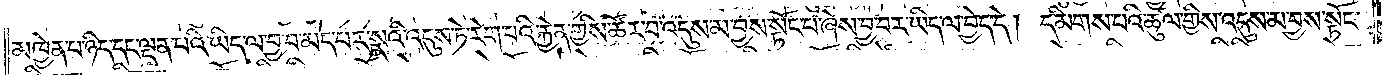མཁྱེན་པ་ཉིད་དང་ལྡན་པའི་ཡིད་ལ་བྱ་བ་མེད་པར་སྣའི་འདུས་ཏེ་རེག་པའི་རྐྱེན་གྱིས་ཚོར་བ་འདུས་མ་བྱས་སྟོང་པ་ཞེས་བྱ་བར་ཡིད་ལ་བྱེད་དེ། དམིགས་པའི་ཚུལ་གྱིས་འདུས་མ་བྱས་སྟོང་
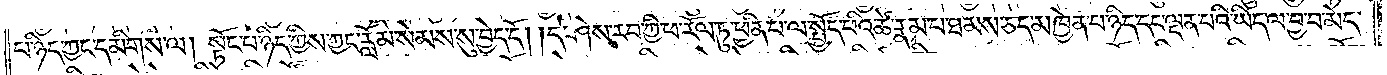པ་ཉིད་ཀྱང་དམིགས་ལ། སྟོང་པ་ཉིད་ཀྱིས་ཀྱང་རློམ་སེམས་སུ་བྱེད་དོ། །དེ་ཤེས་རབ་ཀྱི་ཕ་རོལ་ཏུ་ཕྱིན་པ་ལ་སྤྱོད་པའི་ཚེ་རྣམ་པ་ཐམས་ཅད་མཁྱེན་པ་ཉིད་དང་ལྡན་པའི་ཡིད་ལ་བྱ་བ་མེད་
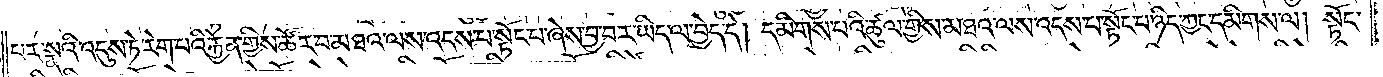པར་སྣའི་འདུས་ཏེ་རེག་པའི་རྐྱེན་གྱིས་ཚོར་བ་མཐའ་ལས་འདས་པ་སྟོང་པ་ཞེས་བྱ་བར་ཡིད་ལ་བྱེད་དེ། དམིགས་པའི་ཚུལ་གྱིས་མཐའ་ལས་འདས་པ་སྟོང་པ་ཉིད་ཀྱང་དམིགས་ལ། སྟོང་
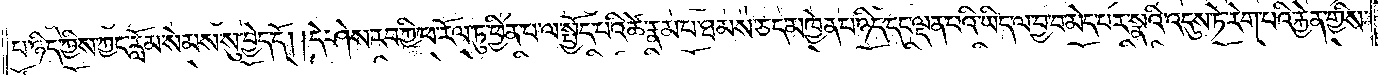པ་ཉིད་ཀྱིས་ཀྱང་རློམ་སེམས་སུ་བྱེད་དོ། །དེ་ཤེས་རབ་ཀྱི་ཕ་རོལ་ཏུ་ཕྱིན་པ་ལ་སྤྱོད་པའི་ཚེ་རྣམ་པ་ཐམས་ཅད་མཁྱེན་པ་ཉིད་དང་ལྡན་པའི་ཡིད་ལ་བྱ་བ་མེད་པར་སྣའི་འདུས་ཏེ་རེག་པའི་རྐྱེན་གྱིས་
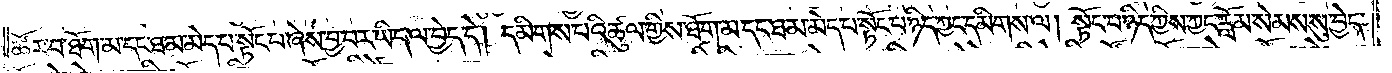ཚོར་བ་ཐོག་མ་དང་ཐ་མ་མེད་པ་སྟོང་པ་ཞེས་བྱ་བར་ཡིད་ལ་བྱེད་དེ། དམིགས་པའི་ཚུལ་གྱིས་ཐོག་མ་དང་ཐ་མ་མེད་པ་སྟོང་པ་ཉིད་ཀྱང་དམིགས་ལ། སྟོང་པ་ཉིད་ཀྱིས་ཀྱང་རློམ་སེམས་སུ་བྱེད་
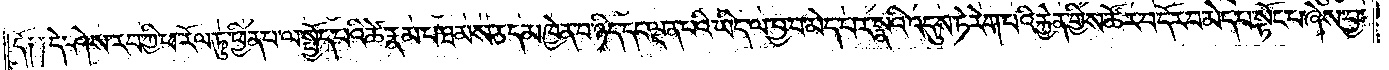དོ༑ ༑དེ་ཤེས་རབ་ཀྱི་ཕ་རོལ་ཏུ་ཕྱིན་པ་ལ་སྤྱོད་པའི་ཚེ་རྣམ་པ་ཐམས་ཅད་མཁྱེན་པ་ཉིད་དང་ལྡན་པའི་ཡིད་ལ་བྱ་བ་མེད་པར་སྣའི་འདུས་ཏེ་རེག་པའི་རྐྱེན་གྱིས་ཚོར་བ་དོར་བ་མེད་པ་སྟོང་པ་ཞེས་བྱ་
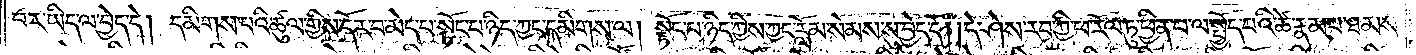བར་ཡིད་ལ་བྱེད་དེ། དམིགས་པའི་ཚུལ་གྱིས་དོར་བ་མེད་པ་སྟོང་པ་ཉིད་ཀྱང་དམིགས་ལ། སྟོང་པ་ཉིད་ཀྱིས་ཀྱང་རློམ་སེམས་སུ་བྱེད་དོ། །དེ་ཤེས་རབ་ཀྱི་ཕ་རོལ་ཏུ་ཕྱིན་པ་ལ་སྤྱོད་པའི་ཚེ་རྣམ་པ་ཐམས་
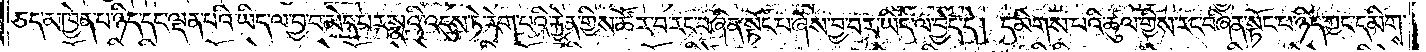ཅད་མཁྱེན་པ་ཉིད་དང་ལྡན་པའི་ཡིད་ལ་བྱ་བ་མེད་པར་སྣའི་འདུས་ཏེ་རེག་པའི་རྐྱེན་གྱིས་ཚོར་བ་རང་བཞིན་སྟོང་པ་ཞེས་བྱ་བར་ཡིད་ལ་བྱེད་དེ། དམིགས་པའི་ཚུལ་གྱིས་རང་བཞིན་སྟོང་པ་ཉིད་ཀྱང་དམིགས་
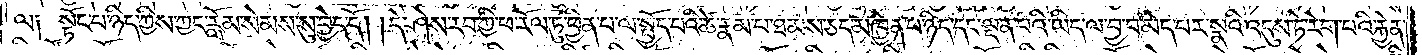ལ༑ སྟོང་པ་ཉིད་ཀྱིས་ཀྱང་རློམ་སེམས་སུ་བྱེད་དོ། །དེ་ཤེས་རབ་ཀྱི་ཕ་རོལ་ཏུ་ཕྱིན་པ་ལ་སྤྱོད་པའི་ཚེ་རྣམ་པ་ཐམས་ཅད་མཁྱེན་པ་ཉིད་དང་ལྡན་པའི་ཡིད་ལ་བྱ་བ་མེད་པར་སྣའི་འདུས་ཏེ་རེག་པའི་རྐྱེན་
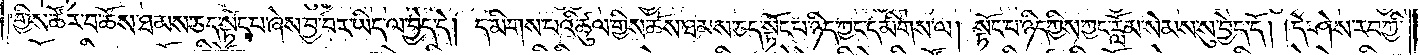གྱིས་ཚོར་བ་ཆོས་ཐམས་ཅད་སྟོང་པ་ཞེས་བྱ་བར་ཡིད་ལ་བྱེད་དེ། དམིགས་པའི་ཚུལ་གྱིས་ཆོས་ཐམས་ཅད་སྟོང་པ་ཉིད་ཀྱང་དམིགས་ལ། སྟོང་པ་ཉིད་ཀྱིས་ཀྱང་རློམ་སེམས་སུ་བྱེད་དོ། །དེ་ཤེས་རབ་ཀྱི་
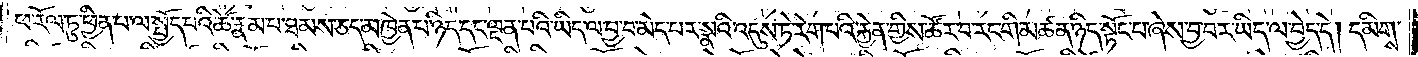ཕ་རོལ་ཏུ་ཕྱིན་པ་ལ་སྤྱོད་པའི་ཚེ་རྣམ་པ་ཐམས་ཅད་མཁྱེན་པ་ཉིད་དང་ལྡན་པའི་ཡིད་ལ་བྱ་བ་མེད་པར་སྣའི་འདུས་ཏེ་རེག་པའི་རྐྱེན་གྱིས་ཚོར་བ་རང་གི་མཚན་ཉིད་སྟོང་པ་ཞེས་བྱ་བར་ཡིད་ལ་བྱེད་དེ། དམིགས་
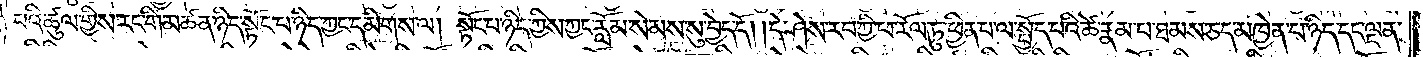པའི་ཚུལ་གྱིས་རང་གི་མཚན་ཉིད་སྟོང་པ་ཉིད་ཀྱང་དམིགས་ལ། སྟོང་པ་ཉིད་ཀྱིས་ཀྱང་རློམ་སེམས་སུ་བྱེད་དོ། །དེ་ཤེས་རབ་ཀྱི་ཕ་རོལ་ཏུ་ཕྱིན་པ་ལ་སྤྱོད་པའི་ཚེ་རྣམ་པ་ཐམས་ཅད་མཁྱེན་པ་ཉིད་དང་ལྡན་
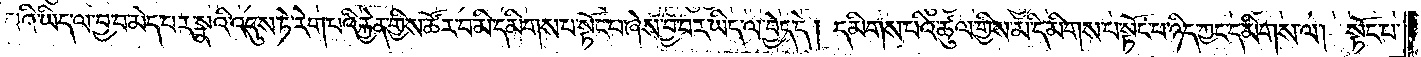པའི་ཡིད་ལ་བྱ་བ་མེད་པར་སྣའི་འདུས་ཏེ་རེག་པའི་རྐྱེན་གྱིས་ཚོར་བ་མི་དམིགས་པ་སྟོང་པ་ཞེས་བྱ་བར་ཡིད་ལ་བྱེད་དེ། དམིགས་པའི་ཚུལ་གྱིས་མི་དམིགས་པ་སྟོང་པ་ཉིད་ཀྱང་དམིགས་ལ། སྟོང་པ་
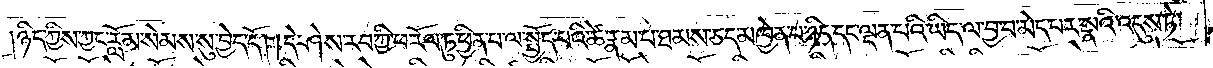ཉིད་ཀྱིས་ཀྱང་རློམ་སེམས་སུ་བྱེད་དོ། །དེ་ཤེས་རབ་ཀྱི་ཕ་རོལ་ཏུ་ཕྱིན་པ་ལ་སྤྱོད་པའི་ཚེ་རྣམ་པ་ཐམས་ཅད་མཁྱེན་པ་ཉིད་དང་ལྡན་པའི་ཡིད་ལ་བྱ་བ་མེད་པར་སྣའི་འདུས་ཏེ་
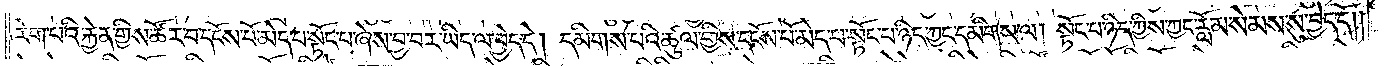རེག་པའི་རྐྱེན་གྱིས་ཚོར་བ་དངོས་པོ་མེད་པ་སྟོང་པ་ཞེས་བྱ་བར་ཡིད་ལ་བྱེད་དེ། དམིགས་པའི་ཚུལ་གྱིས་དངོས་པོ་མེད་པ་སྟོང་པ་ཉིད་ཀྱང་དམིགས་ལ། སྟོང་པ་ཉིད་ཀྱིས་ཀྱང་རློམ་སེམས་སུ་བྱེད་དོ། །
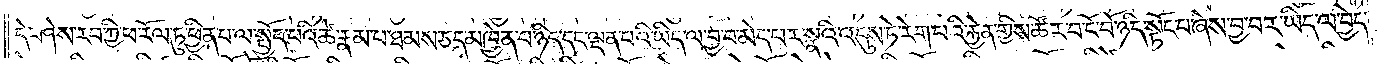དེ་ཤེས་རབ་ཀྱི་ཕ་རོལ་ཏུ་ཕྱིན་པ་ལ་སྤྱོད་པའི་ཚེ་རྣམ་པ་ཐམས་ཅད་མཁྱེན་པ་ཉིད་དང་ལྡན་པའི་ཡིད་ལ་བྱ་བ་མེད་པར་སྣའི་འདུས་ཏེ་རེག་པའི་རྐྱེན་གྱིས་ཚོར་བ་ངོ་བོ་ཉིད་སྟོང་པ་ཞེས་བྱ་བར་ཡིད་ལ་བྱེད་
